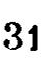31
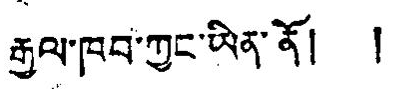རྒྱལ་ཁབ་ཀྱང་ཡིན་ནོ། །
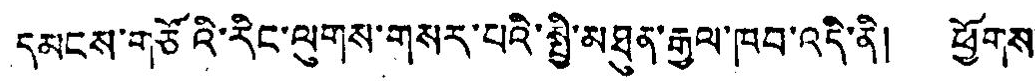དམངས་གཙོའི་རིང་ལུགས་གསར་པའི་སྤྱི་མཐུན་རྒྱལ་ཁབ་འདི་ནི། ཕྱོགས་
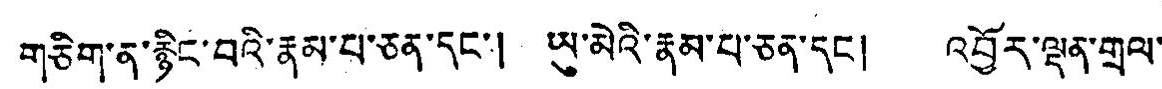གཅིག་ན་རྙིང་བའི་རྣམ་པ་ཅན་དང་། ཡུ་མེའི་རྣམ་པ་ཅན་དང། འབྱོར་ལྡན་གྲལ་
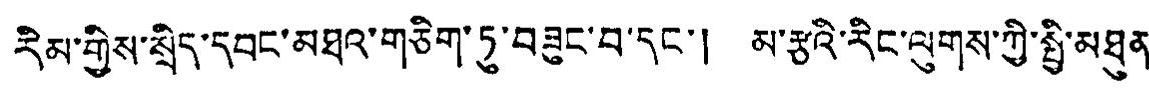རིམ་གྱིས་སྲིད་དབང་མཐའ་གཅིག་ཏུ་བཟུང་བ་དང་། མ་རྩའི་རིང་ལུགས་ཀྱི་སྤྱི་མཐུན་
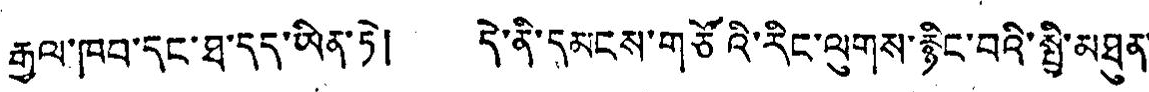རྒྱལ་ཁབ་དང་ཐ་དད་ཡིན་ཏེ། དེ་ནི་དམངས་གཙོའི་རིང་ལུགས་རྙིང་བའི་སྤྱི་མཐུན་
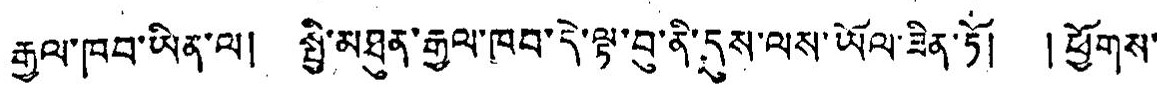རྒྱལ་ཁབ་ཡིན་ལ། སྤྱི་མཐུན་རྒྱལ་ཁབ་དེ་ལྟ་བུ་ནི་དུས་ལས་ཡོལ་ཟིན་ཏོ། །ཕྱོགས་
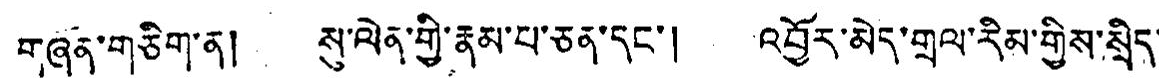གཞན་གཅིག་ན། སུ་ལེན་གྱི་རྣམ་པ་ཅན་དང་། འབྱོར་མེད་གྲལ་རིམ་གྱིས་སྲིད་
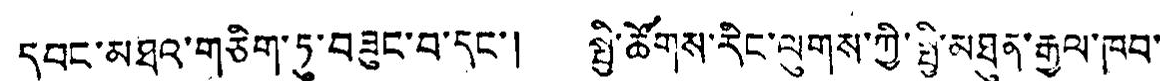དབང་མཐའ་གཅིག་ཏུ་བཟུང་བ་དང་། སྤྱི་ཚོགས་རིང་ལུགས་ཀྱི་སྤྱི་མཐུན་རྒྱལ་ཁབ་
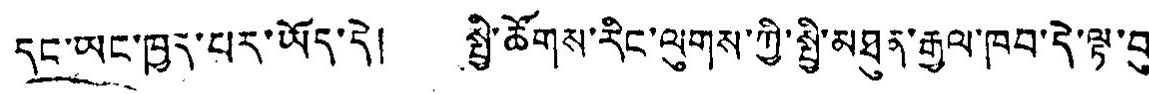དང་ཡང་ཁྱད་པར་ཡོད་དེ། སྤྱི་ཚོགས་རིང་ལུགས་ཀྱི་སྤྱི་མཐུན་རྒྱལ་ཁབ་དེ་ལྟ་བུ་
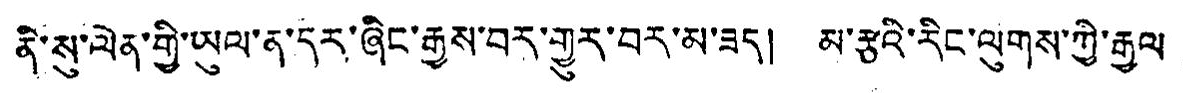ནི་སུ་ལེན་གྱི་ཡུལ་ན་དར་ཞིང་རྒྱས་བར་གྱུར་བར་མ་ཟད། མ་རྩའི་རིང་ལུགས་ཀྱི་རྒྱལ་
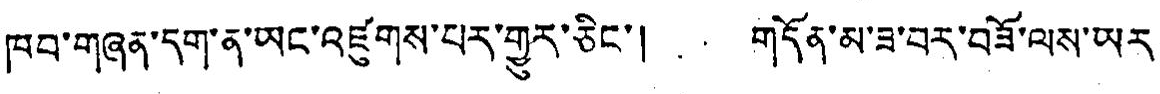ཁབ་གཞན་དག་ན་ཡང་འཛུགས་པར་གྱུར་ཅིང་། གདོན་མ་ཟ་བར་བཟོ་ལས་ཡར
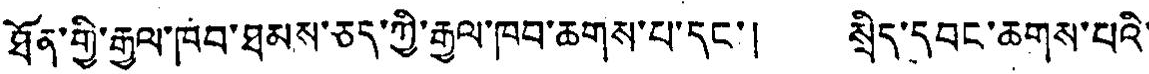ཐོན་གྱི་རྒྱལ་ཁབ་ཐམས་ཅད་ཀྱི་རྒྱལ་ཁབ་ཆགས་པ་དང་། སྲིད་དབང་ཆགས་པའི་
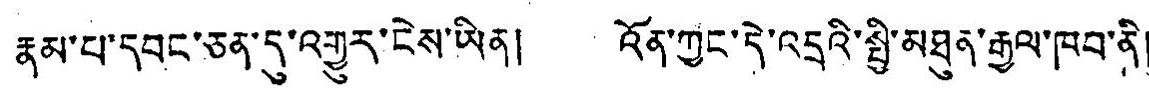རྣམ་པ་དབང་ཅན་དུ་འགྱུར་ངེས་ཡིན། འོན་ཀྱང་དེ་འདྲའི་སྤྱི་མཐུན་རྒྱལ་ཁབ་ནི།
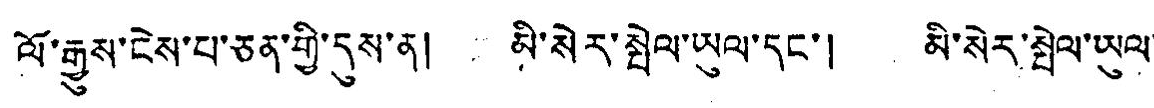ལོ་རྒྱུས་ངེས་པ་ཅན་གྱི་དུས་ན། མི་སེར་སྤེལ་ཡུལ་དང་། མི་སེར་སྤེལ་ཡུལ་
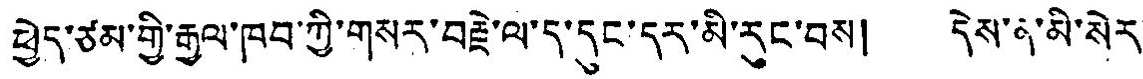ཕྱེད་ཙམ་གྱི་རྒྱལ་ཁབ་ཀྱི་གསར་བརྗེ་ལ་ད་དུང་དར་མི་རུང་བས། དེས་ན་མི་སེར་
